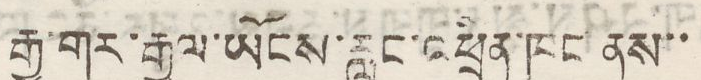རྒྱ་གར་རྒྱལ་ཡོངས་རླུང་འཕྲིན་ཁང་ནས་་
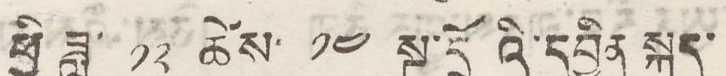ཕྱི ཟླ་ ༡༢ ཚེས་ ༡༤ སྔོ་དྲོའི་དབྱིན་སྐད་
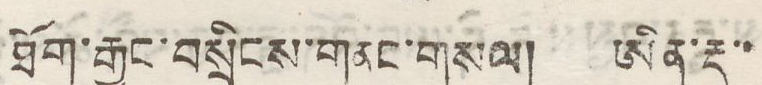ཐོག་རྒྱང་བསྲིངས་གནང་གསལ། ཨིན་རྡུ་་
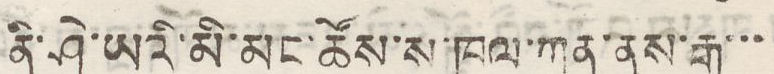ནི་ཤེ་ཡའི་མི་མང་ཚོས་ས་ཁུལ་ཀུན་ནས་རྒྱ་་་
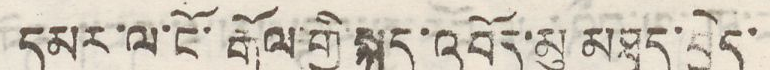དམར་ལ་ངོ་རྒོལ་གྱི་སྐད་འབོད་མུ་མཐུད་བྱེད་
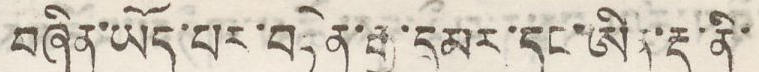བཞིན་ཡོད་པར་བརྟེན་རྒྱ་དམར་དང་ཨིན་རྡུ་ནི་
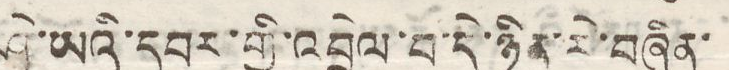ཤེ་ཡའི་དབར་གྱི་འབྲེལ་བ་དེ་ཉིན་རེ་བཞིན་
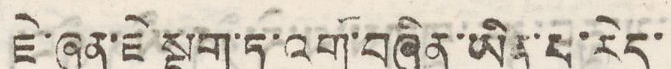ཇེ་ཞན་སྡུག་ཏུ་འགྲོ་བཞིན་ཡིན་པ་རེད་
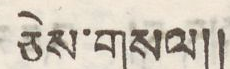ཅེས་གསལ།།
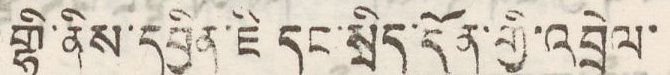གྷི་ནིས་དབྱིན་ཇི་དང་སྲིད་དོན་གྱི་འབྲེལ་
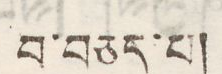པ་བཅད་པ།
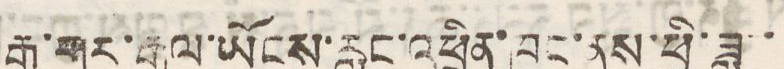རྒྱ་གར་རྒྱལ་ཡོངས་རླུང་འཕྲིན་ཁང་ནས་ཕྱི་ཟླ་
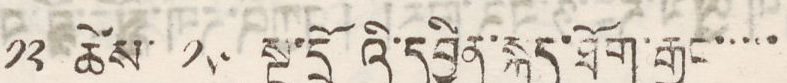༡༢ ཚེས་ ༡༥ སྔ་དྲོའི་དབྱིན་སྐད་ཐོག་རྒྱང་་་་
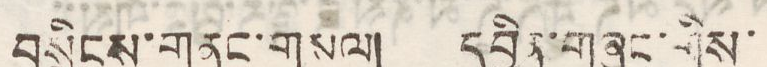བསྲིངས་གནང་གསལ། དབྱིན་གཞིང་གིས་
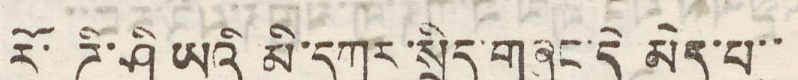རོ་ཌི་ཤི ཡའི་མི་དཀར་སྲིད་གཞུང་དེ མེད་པ་་
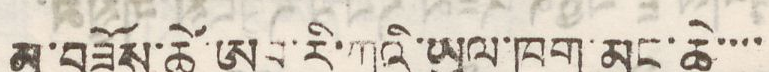མ་བཟོས་ཚེ་ཨབ་རི་ཀའི་ཡུལ་ཁག་མང་ཆེ་་་་་
